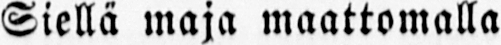Siellä maja maattomalla
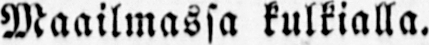Maailmassa kulkialla.
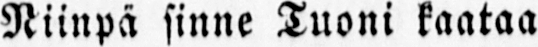Niinpä sinne Tuoni kaataa
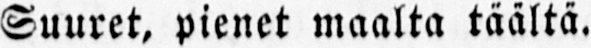Suuret, pienet maalta täältä.
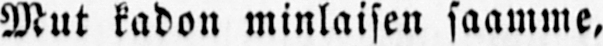Mut kadon minlaisen saamme,
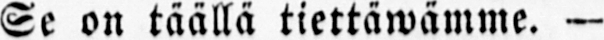Se on täällä tiettäwämme. —
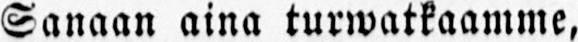Sanaan aina turwatkaamme,
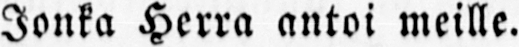Jonka Herra antoi meille.
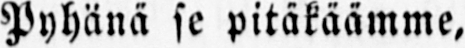Pyhänä se pitäkäämme,
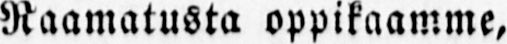Raamatusta oppikaamme,
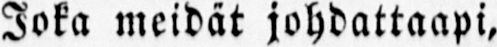Joka meidät johdattaapi,
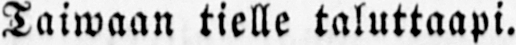Taiwaan tielle taluttaapi.
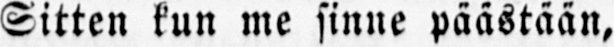Sitten kun me sinne päästään,
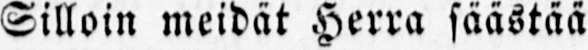Silloin meidät Herra säästää
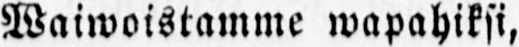Waiwoistamme wapahiksi,
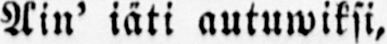Ain' iäti autuwiksi,
